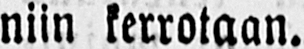niin kerrotaan.
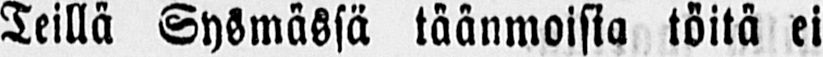Teillä Sysmässä täänmoisia töitä ei
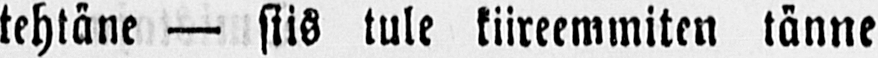tehtäne — siis tule kiireemmiten tänne
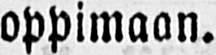oppimaan.
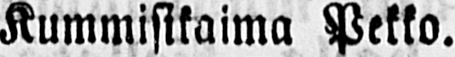Kummisikaima Pekko.
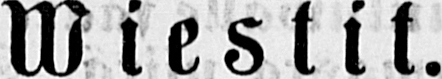W iestit.
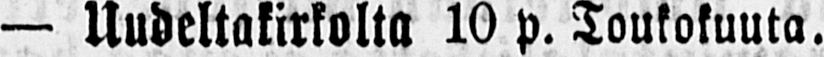— Uudeltakirkolta 10 p. Toukokuuta.
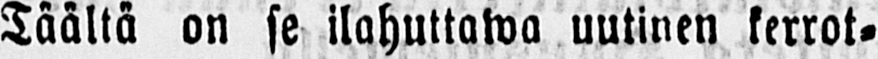Täältä on se ilahuttawa uutinen kerrot-
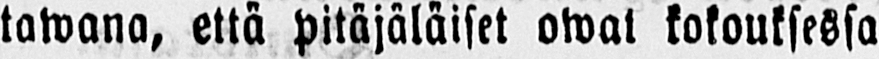tawana, että pitäjäläiset owat kokouksessa
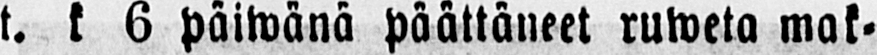t. k 6 päiwänä päättäneet ruweta mak-
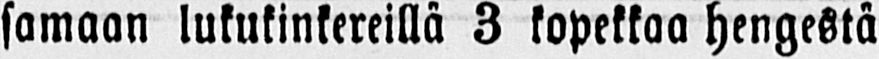samaan lukukinkereillä 3 kopekkaa hengestä
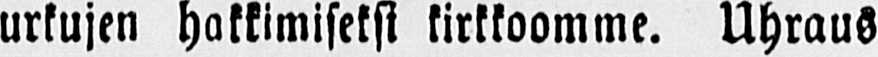urkujen hakkimiseksi kirkkoomme. Uhraus
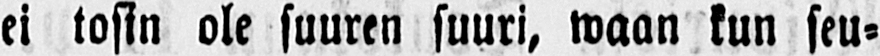ei tosin ole suuren suuri, waan kun seu-
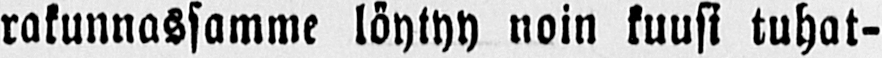rakunnassamme löytyy noin kuusi tuhat-
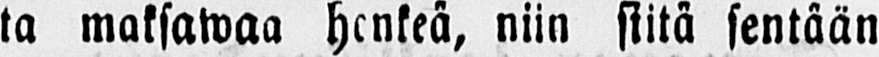ta maksawaa henkeä, niin siitä sentään
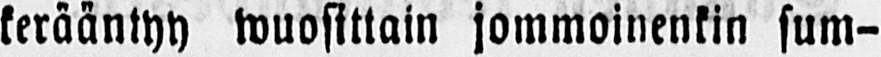kerääntyy wuosittain jommoinenkin sum-
